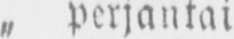„ perjantai
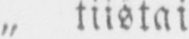„ tiistai
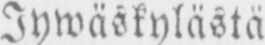Jywäskylästä
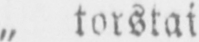„ torstai
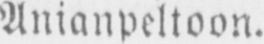Anianpeltoon.
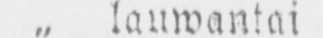„ lauwantai
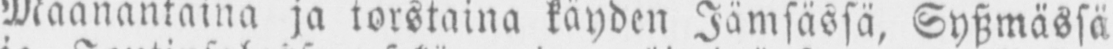Maanantaina ja torstaina käyden Jämsässä, Syszmässä
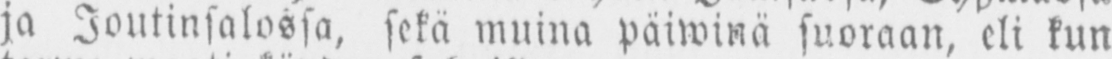ja Joutinsalossa, sekä muina päiwinä suoraan, eli kun
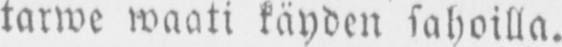tarwe waati käyden sahoilla.
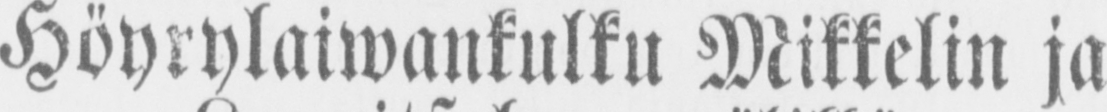Höyrylaiwankulku Mikkelin ja
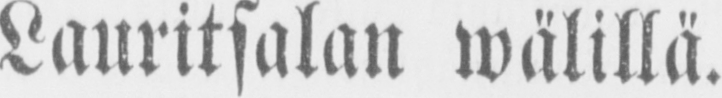Lauritsalan wälillä.
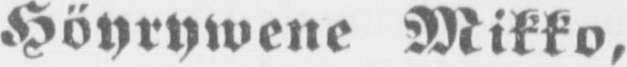Höyrywene Mikko,
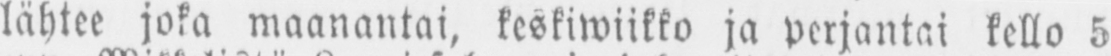lähtee joka maanantai, keskiwiikko ja perjantai kello 5
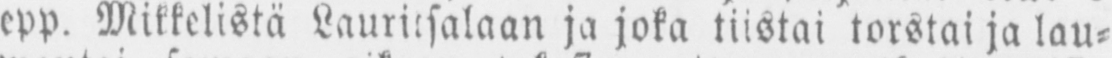epp. Mikkelistä Lauritsalaan ja joka tiistai torstai ja lau-
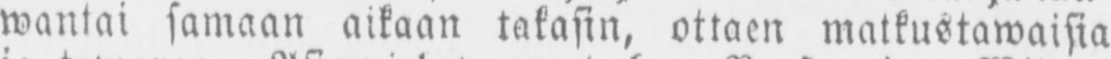wantai samaan aikaan takasin, ottaen matkustawaisia
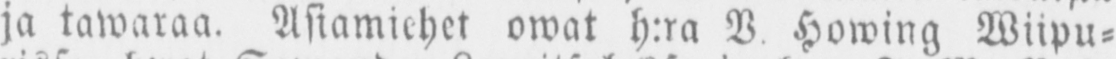ja tawaraa. Asiamiehet owat h:ra V. Howing Wiipu-
